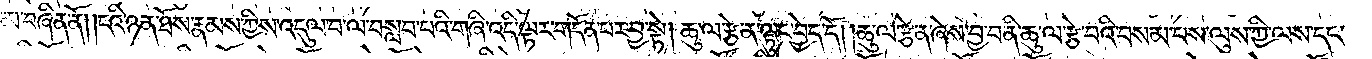མ་བཞིན་ནོ། །ངའི་ཉན་ཐོས་རྣམས་ཀྱིས་འདུལ་བ་ལ་བསླབ་པའི་གཞི་འདི་ལྟར་གདོན་པར་བྱ་སྟེ། ཆུ་ལ་རྩེ་ན་ལྟུང་བྱེད་དོ། །ཆུ་ལ་རྩེ་ན་ཞེས་བྱ་བ་ནི་ཆུ་ལ་རྩེ་བའི་བསམ་པས་ལུས་ཀྱི་ལས་དང་
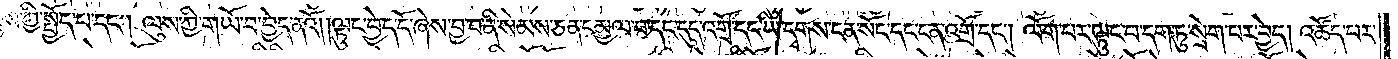ལུས་ཀྱི་སྤྱོད་པ་དང༌། ལུས་ཀྱི་གཡོ་བ་བྱེད་ནའོ། །ལྟུང་བྱེད་དོ་ཞེས་བྱ་བ་ནི་སེམས་ཅན་དམྱལ་བ་དང་དུད་འགྲོ་དང་ཡི་དྭགས་ངན་སོང་དང་ངན་འགྲོ་དང༌། ལོག་པར་ལྟུང་བ་དག་ཏུ་སྲེག་པར་བྱེད། འཚོད་པར་
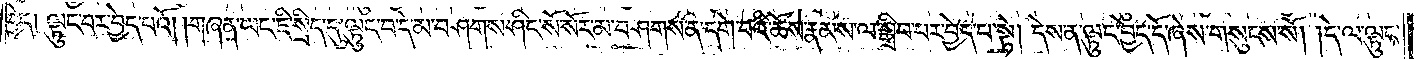བྱེད། ལྟུང་བར་བྱེད་པའོ། །གཞན་ཡང་ཇི་སྲིད་དུ་ལྟུང་བ་དེ་མ་བཤགས་ཤིང་སོ་སོར་མ་བཤགས་ན་དགེ་བའི་ཆོས་རྣམས་ལ་སྒྲིབ་པར་བྱེད་པ་སྟེ། དེས་ན་ལྟུང་བྱེད་དོ་ཞེས་གསུངས་སོ། །དེ་ལ་ལྟུང་
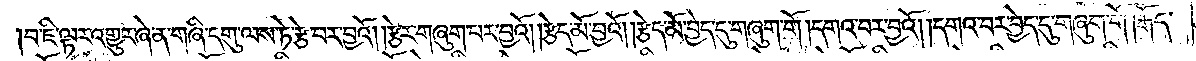བ་ཇི་ལྟར་འགྱུར་ཞེ་ན་གཞི་དགུ་ལས་ཏེ་རྩེ་བར་བྱའོ། །རྩེར་གཞུག་པར་བྱའོ། །རྩེད་མོ་བྱའོ། །རྩེད་མོ་བྱེད་དུ་གཞུག་གོ །དགའ་བར་བྱའོ། །དགའ་བར་བྱེད་དུ་གཞུག་གོ །རྒོད་
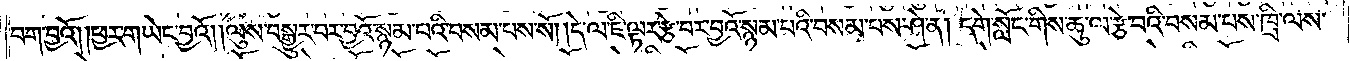བག་བྱའོ། །ཕྱར་གཡེང་བྱའོ། །ལུས་བསྒྱུར་བར་བྱའོ་སྙམ་པའི་བསམ་པས་སོ། །དེ་ལ་ཇི་ལྟར་རྩེ་བར་བྱའོ་སྙམ་པའི་བསམ་པས་ཤེ་ན། དགེ་སློང་གིས་ཆུ་ལ་རྩེ་བའི་བསམ་པས་ཁྲི་ལས་
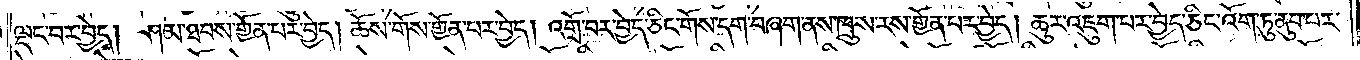ལྡང་བར་བྱེད། ཤམ་ཐབས་གྱོན་པར་བྱེད། ཆོས་གོས་གྱོན་པར་བྱེད། འགྲོ་བར་བྱེད་ཅིང་གོས་དག་བཞག་ནས་ཁྲུས་རས་གྱོན་པར་བྱེད། ཆུར་འཇུག་པར་བྱེད་ཅིང་འོག་ཏུ་ནུབ་པར་
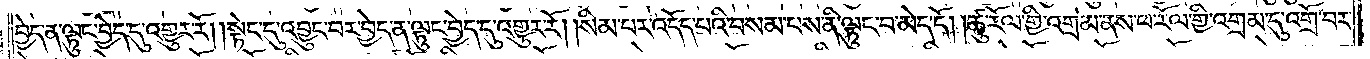བྱེད་ན་ལྟུང་བྱེད་དུ་འགྱུར་རོ། །སྟེང་དུ་འབྱུང་བར་བྱེད་ན་ལྟུང་བྱེད་དུ་འགྱུར་རོ། །སིམ་པར་འདོད་པའི་བསམ་པས་ནི་ལྟུང་བ་མེད་དོ། །ཚུ་རོལ་གྱི་འགྲམ་ནས་ཕ་རོལ་གྱི་འགྲམ་དུ་འགྲོ་བར་
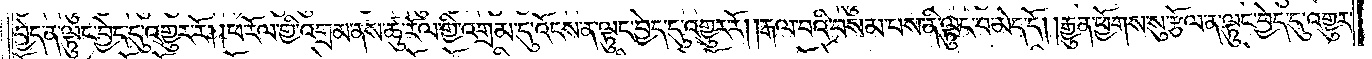བྱེད་ན་ལྟུང་བྱེད་དུ་འགྱུར་རོ། །ཕ་རོལ་གྱི་འགྲམ་ནས་ཚུ་རོལ་གྱི་འགྲམ་དུ་འོངས་ན་ལྟུང་བྱེད་དུ་འགྱུར་རོ། །རྒལ་བའི་བསམ་པས་ནི་ལྟུང་བ་མེད་དོ། །རྒྱུན་ཕྱོགས་སུ་རྩོལ་ན་ལྟུང་བྱེད་དུ་འགྱུར་
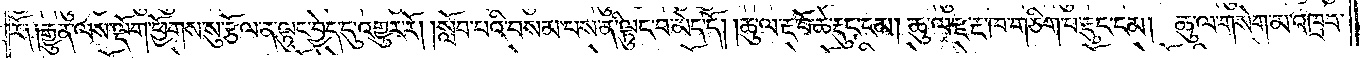རོ༑ ༑རྒྱུན་ལས་ལྡོག་ཕྱོགས་སུ་རྩོལ་ན་ལྟུང་བྱེད་དུ་འགྱུར་རོ། །སློབ་པའི་བསམ་པས་ནི་ལྟུང་བ་མེད་དོ། །ཆུ་ལ་རྔ་བོ་ཆེ་རྡུང་ངམ། ཆུ་ལ་རྫ་རྔ་ཁ་གཅིག་པ་རྡུང་ངམ། ཆུ་ལ་གསེག་མ་འཁྲབ་
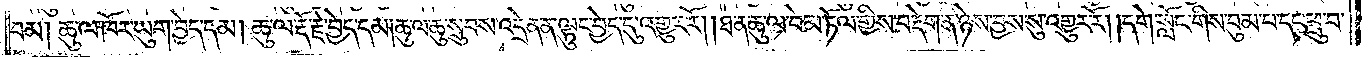བམ། ཆུ་ལ་ཁོར་ཡུག་བྱེད་དམ། ཆུ་ལ་རྡོ་རྗེ་བྱེད་དམ།ཆུ་ལ་ཆུ་སྲུབས་འདྲེན་ན་ལྟུང་བྱེད་དུ་འགྱུར་རོ། །ཐ་ན་ཆུ་ལ་བེམ་ཏོལ་གྱིས་བརྡེག་ན་ཉེས་བྱས་སུ་འགྱུར་རོ། །དགེ་སློང་གིས་བུམ་པ་དང་ཕྲུ་བ་
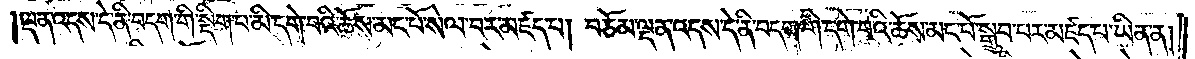ལྡན་འདས་དེ་ནི་བདག་གི་སྡིག་པ་མི་དགེ་བའི་ཆོས་མང་པོ་སེལ་བར་མཛད་པ། བཅོམ་ལྡན་འདས་དེ་ནི་བདག་གི་དགེ་བའི་ཆོས་མང་པོ་སྒྲུབ་པར་མཛད་པ་ཡིན་ན།
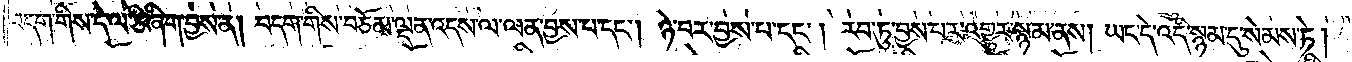བདག་གིས་དེ་ལ་ཅི་ཞིག་བྱས་ན། བདག་གིས་བཅོམ་ལྡན་འདས་ལ་ལན་བྱས་པ་དང༌། ཉེ་བར་བྱས་པ་དང༌། རབ་ཏུ་བྱས་པར་འགྱུར་སྙམ་ནས། ཡང་དེ་འདི་སྙམ་དུ་སེམས་ཏེ།
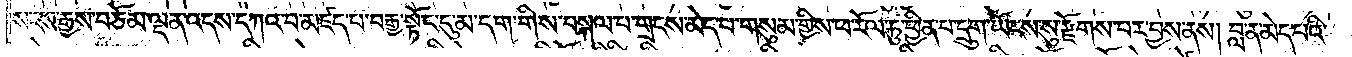སངས་རྒྱས་བཅོམ་ལྡན་འདས་དཀའ་བ་མཛད་པ་བརྒྱ་སྟོང་དུ་མ་དག་གིས་བསྐལ་པ་གྲངས་མེད་པ་གསུམ་གྱིས་ཕ་རོལ་ཏུ་ཕྱིན་པ་དྲུག་ཡོངས་སུ་རྫོགས་པར་བྱས་ནས། བླ་ན་མེད་པའི་
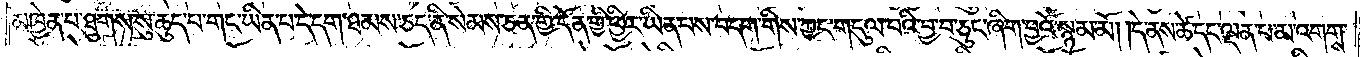མཁྱེན་པ་ཐུགས་སུ་ཆུད་པ་གང་ཡིན་པ་དེ་དག་ཐམས་ཅད་ནི་སེམས་ཅན་གྱི་དོན་གྱི་ཕྱིར་ཡིན་པས་བདག་གིས་ཀྱང་གདུལ་བའི་བྱ་བ་ཅུང་ཞིག་བྱའོ་སྙམ་མོ། །དེ་ནས་ཚེ་དང་ལྡན་པ་མ་འགགས་
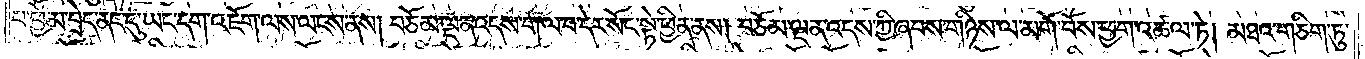པ་ཕྱེ་མ་བྲེད་ནང་དུ་ཡང་དག་འཇོག་ལས་ལངས་ནས། བཅོམ་ལྡན་འདས་ག་ལ་བ་དེར་སོང་སྟེ་ཕྱིན་ནས། བཅོམ་ལྡན་འདས་ཀྱི་ཞབས་གཉིས་ལ་མགོ་བོས་ཕྱག་འཚལ་ཏེ། མཐའ་གཅིག་ཏུ་
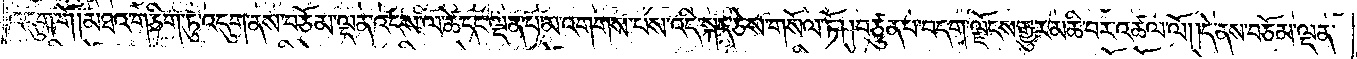འདུག་གོ །མཐའ་གཅིག་ཏུ་འདུག་ནས་བཅོམ་ལྡན་འདས་ལ་ཚེ་དང་ལྡན་པ་མ་འགགས་པས་འདི་སྐད་ཅེས་གསོལ་ཏོ། །བཙུན་པ་བདག་ལྗོངས་རྒྱུར་མཆི་བར་འཚལ་ལོ། །དེ་ནས་བཅོམ་ལྡན་
